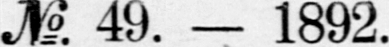No. 49. — 1892.
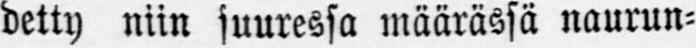detty niin juuressa määrässä naurun-
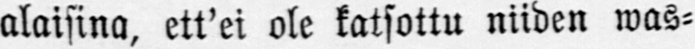alaisina, ett'ei ole katsottu niiden was-
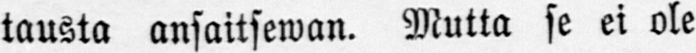tausta ansaitsewan. Mutta se ei ole
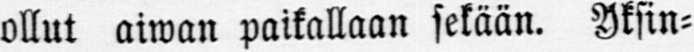ollut aiwän paikallaan sekään. Yksin-
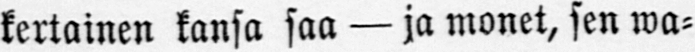kertainen kansa saa — ja monet, sen wa-
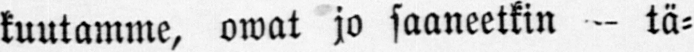kuutamme, owat jo saaneetkin - tä-
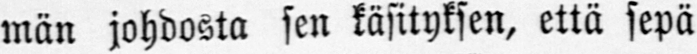män johdosta sen käsityksen, että sepä
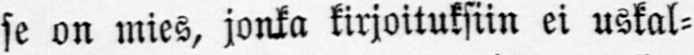se on mies, jonka kirjoituksiin ei uskal-
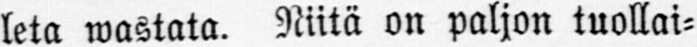leta wastata. Niitä on paljon tuollai-
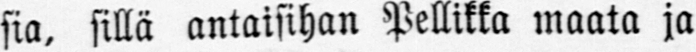sia. sillä antaisihan Pellikka maata ja
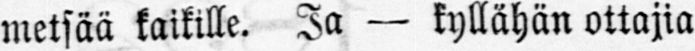metsää kaikille. Ja — kyllähän ottajia
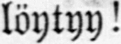löytyy!
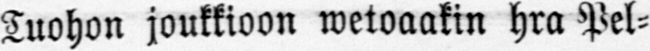Tuohon joukkioon wetoaakin hra Pel-
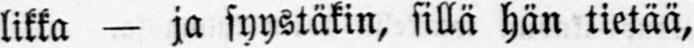likka — ja syystäkin, sillä hän tietää,
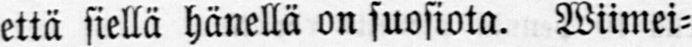että siellä hänellä on suosiota. Wiimei-
